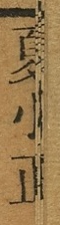夏小正
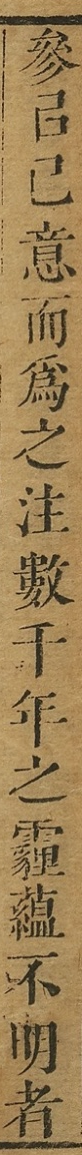參以已意而為之注數千年之霾藴不明者
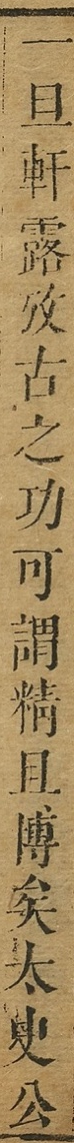一旦軒露攷古之功可謂精且博矣太史公
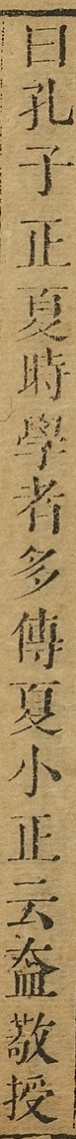曰孔子正夏時學者多傅夏小正云益敬授
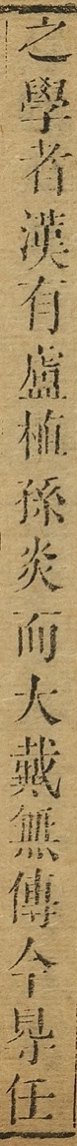之學者漢有盧植孫炎而大戴無傳今䙷任
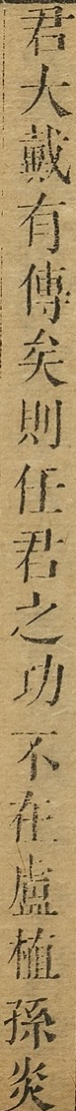君大載有傳矣則任君之功不在盧植孫炎
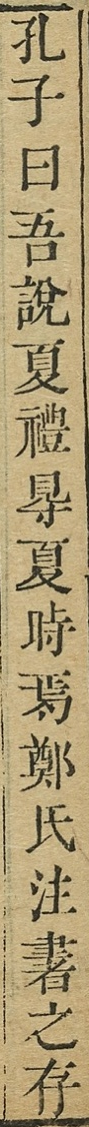孔子曰吾說夏禮得夏時焉鄭氏注書之存
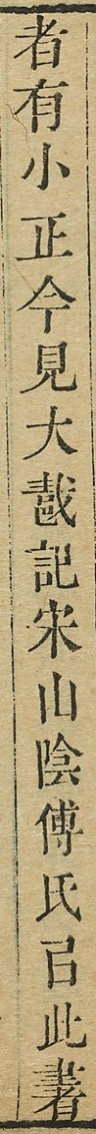者有小正今見大戴記宋山陰傳氏以此書
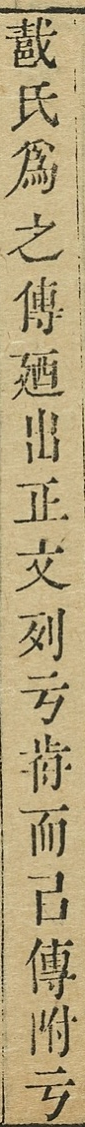戴氏為之傳乃出正文列亏前而以傅附亏
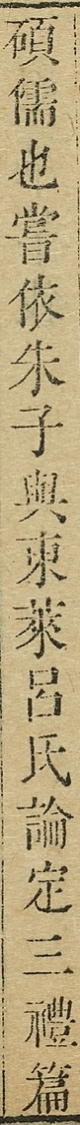碩儒也嘗依朱子與東萊呂氏論定三禮篇
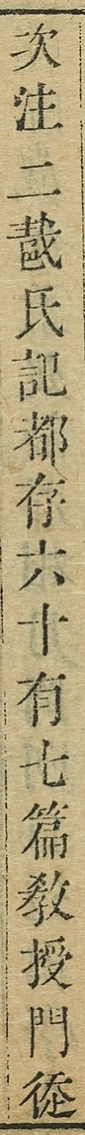次注二戴氏記都存六十有七篇教授門徒
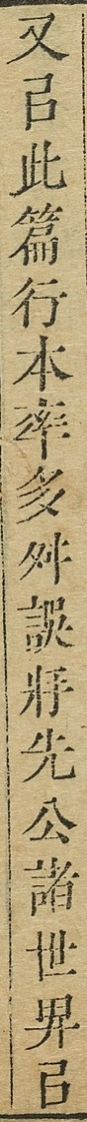又以此篇行本率多舛誤將先公諸世畀以
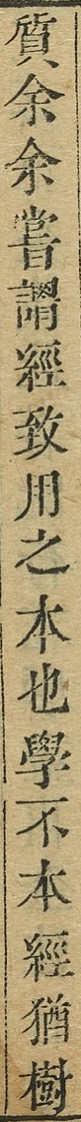質余余嘗謂經致用之本也學不本經猶樹
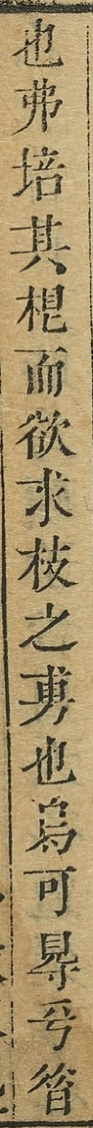也弗培其根而欲求枝之敷也烏可得平昔
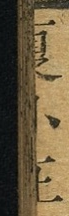夏小正
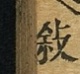敘
